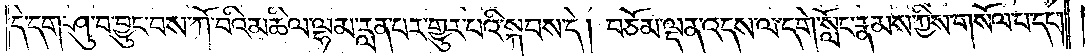དེ་དག་ཤུ་བ་བྱུང་བས་ཀོ་བའི་མཆིལ་ལྷམ་རླན་པར་གྱུར་པའི་སྐབས་དེ། བཅོམ་ལྡན་འདས་ལ་དགེ་སློང་རྣམས་ཀྱིས་གསོལ་པ་དང༌།
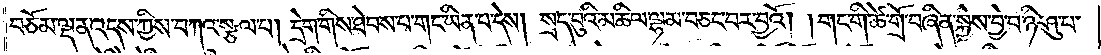བཅོམ་ལྡན་འདས་ཀྱིས་བཀའ་སྩལ་པ། དྲེག་གིས་ཐེབས་པ་གང་ཡིན་པ་དེས། སྲད་བུའི་མཆིལ་ལྷམ་བཅང་བར་བྱའོ། གང་གི་ཚེ་གྲོ་བཞིན་སྐྱེས་བྱེ་བ་ཉི་ཤུ་པ་
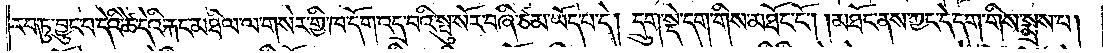རབ་ཏུ་བྱུང་བ་དེའི་ཚེ་དེའི་རྐང་མཐིལ་ལ་གསེར་གྱི་ཁ་དོག་འདྲ་བའི་སྤུ་སོར་བཞི་ཙམ་ཡོད་པ་དེ། དྲུག་སྡེ་དག་གིས་མཐོང་ངོ༌། །མཐོང་ནས་ཀྱང་དེ་དག་གིས་སྨྲས་པ།
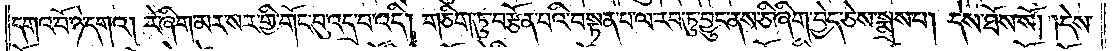དགའ་བོ་ཉེ་དགའ། རེ་ཞིག་མར་སར་གྱི་གོང་བུ་འདྲ་བ་འདི། གཅིག་ཏུ་བརྩོན་པའི་བསྟན་པ་ལ་རབ་ཏུ་བྱུང་ནས་ཅི་ཞིག་བྱེད་ཅེས་སྨྲས་པ། དེས་ཐོས་སོ། །དེས་
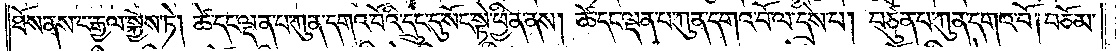ཐོས་ནས་ང་རྒྱལ་སྐྱེས་ཏེ། ཚེ་དང་ལྡན་པ་ཀུན་དགའ་བོའི་དྲུང་དུ་སོང་སྟེ་ཕྱིན་ནས། ཚེ་དང་ལྡན་པ་ཀུན་དགའ་བོ་ལ་དྲིས་པ། བཙུན་པ་ཀུན་དགའ་བོ། བཅོམ་
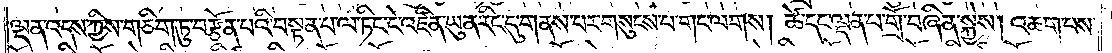ལྡན་འདས་ཀྱིས་གཅིག་ཏུ་བརྩོན་པའི་བསྟན་པ་ལ་ཏིང་ངེ་འཛིན་ཡུན་རིང་དུ་གནས་པར་གསུངས་པ་གང་ལགས། ཚེ་དང་ལྡན་པ་གྲོ་བཞིན་སྐྱེས། འཆག་པས་
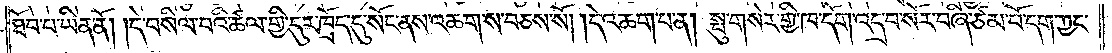ཐོབ་པ་ཡིན་ནོ། །དེ་བསིལ་བའི་ཚལ་གྱི་དུར་ཁྲོད་དུ་སོང་ནས་འཆག་ས་བཅས་སོ། །དེ་འཆག་པ་ན། སྤུ་གསེར་གྱི་ཁ་དོག་འདྲ་བ་སོར་བཞི་ཙམ་པོ་དག་ཀྱང་
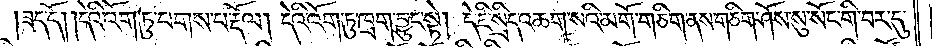ཟད་དོ། །དེའི་འོག་ཏུ་པགས་པ་རྡོལ། དེའི་འོག་ཏུ་ཁྲག་བྱུང་སྟེ། དེ་ཇི་སྲིད་འཆག་སའི་མགོ་གཅིག་ནས་གཅིག་ཤོས་སུ་སོང་གི་བར་དུ་
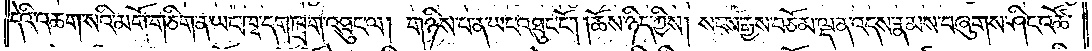དེའི་འཆག་སའི་མགོ་གཅིག་ན་ཡང་ཁྭ་དག་ཁྲག་འཐུང་ལ། གཉིས་པ་ན་ཡང་འཐུང་ངོ༌། །ཆོས་ཉིད་ཀྱིས། སངས་རྒྱས་བཅོམ་ལྡན་འདས་རྣམས་བཞུགས་ཤིང་འཚོ་
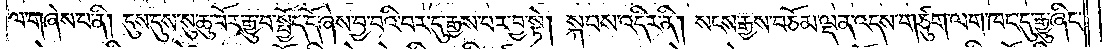ལ་གཞེས་པ་ནི། དུས་དུས་སུ་ཆུ་བོར་རྒྱུ་བ་སྤྱོད་དོ་ཞེས་བྱ་བའི་བར་དུ་རྒྱས་པར་བྱ་སྟེ། སྐབས་འདིར་ནི། སངས་རྒྱས་བཅོམ་ལྡན་འདས་གཙུག་ལག་ཁང་དུ་རྒྱུ་ཞིང་
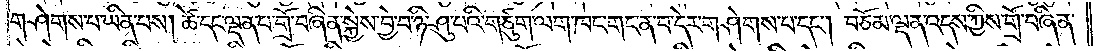གཤེགས་པ་ཡིན་པས། ཚེ་དང་ལྡན་པ་གྲོ་བཞིན་སྐྱེས་བྱེ་བ་ཉི་ཤུ་པའི་གཙུག་ལག་ཁང་གང་ན་བ་དེར་གཤེགས་པ་དང༌། བཅོམ་ལྡན་འདས་ཀྱིས་གྲོ་བཞིན་
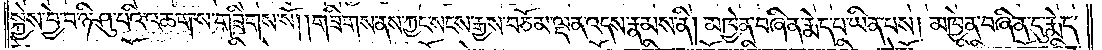སྐྱེས་བྱེ་བ་ཉི་ཤུ་པའི་འཆག་ས་གཟིགས་སོ། །གཟིགས་ནས་ཀྱང་སངས་རྒྱས་བཅོམ་ལྡན་འདས་རྣམས་ནི། མཁྱེན་བཞིན་རྨེད་པ་ཡིན་པས། མཁྱེན་བཞིན་དུ་རྨེད་
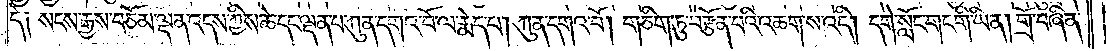དེ༏ སངས་རྒྱས་བཅོམ་ལྡན་འདས་ཀྱིས་ཆེ་དང་ལྡན་པ་ཀུན་དགའ་བོ་ལ་རྨེད་པ། ཀུན་དགའ་བོ། གཅིག་ཏུ་བརྩོན་པའི་འཆག་ས་འདི། དགེ་སློང་གང་གི་ཡིན། གྲོ་བཞིན་
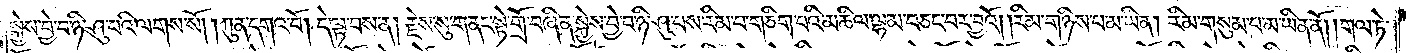སྐྱེས་བྱེ་བ་ཉི་ཤུ་པའི་ལགས་སོ། །ཀུན་དགའ་བོ། དེ་ལྟ་བས་ན། རྗེས་སུ་གནང་སྟེ་གྲོ་བཞིན་སྐྱེས་བྱེ་བ་ཉི་ཤུ་པས་རིམ་པ་གཅིག་པའི་མཆིལ་ལྷམ་བཅང་བར་བྱའོ། །རིམ་གཉིས་པ་མ་ཡིན། རིམ་གསུམ་པ་མ་ཡིན་ནོ། །གལ་ཏེ་
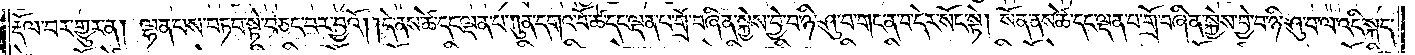རྡོལ་བར་གྱུར་ན། ལྷན་པས་བཏབ་སྟེ་བཅང་བར་བྱའོ། །དེ་ནས་ཚེ་དང་ལྡན་པ་ཀུན་དགའ་བོ་ཚེ་དང་ལྡན་པ་གྲོ་བཞིན་སྐྱེས་བྱེ་བ་ཉི་ཤུ་པ་གང་ན་བ་དེར་སོང་སྟེ། སོན་ནས་ཚེ་དང་ལྡན་པ་གྲོ་བཞིན་སྐྱེས་བྱེ་བ་ཉི་ཤུ་པ་ལ་འདི་སྐད་
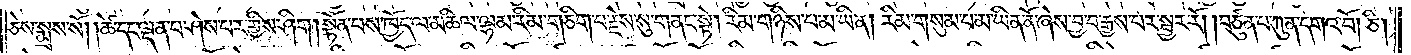ཅེས་སྨྲས་སོ། །ཚེ་དང་ལྡན་པ་ཤེས་པར་གྱིས་ཤིག །སྟོན་པས་ཁྱོད་ལ་མཆིལ་ལྷམ་རིམ་གཅིག་པ་རྗེས་སུ་གནང་སྟེ། རིམ་གཉིས་པ་མ་ཡིན། རིམ་གསུམ་པ་མ་ཡིན་ནོ་ཞེས་བྱ་བ་རྒྱས་པར་སྦྱར་རོ། །བཙུན་པ་ཀུན་དགའ་བོ། ཅི།
